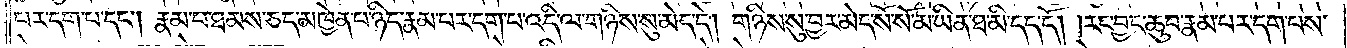པར་དག་པ་དང༌། རྣམ་པ་ཐམས་ཅད་མཁྱེན་པ་ཉིད་རྣམ་པར་དག་པ་འདི་ལ་གཉིས་སུ་མེད་དེ། གཉིས་སུ་བྱར་མེད་སོ་སོ་མ་ཡིན་ཐ་མི་དད་དོ། །རང་བྱང་ཆུབ་རྣམ་པར་དག་པས་
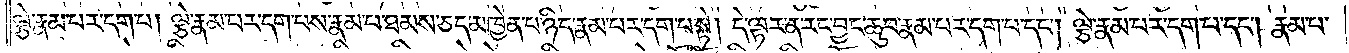ལྕེ་རྣམ་པར་དག་པ། ལྕེ་རྣམ་པར་དག་པས་རྣམ་པ་ཐམས་ཅད་མཁྱེན་པ་ཉིད་རྣམ་པར་དག་པ་སྟེ། དེ་ལྟར་ན་རང་བྱང་ཆུབ་རྣམ་པར་དག་པ་དང༌། ལྕེ་རྣམ་པར་དག་པ་དང༌། རྣམ་པ་
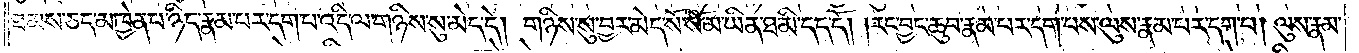ཐམས་ཅད་མཁྱེན་པ་ཉིད་རྣམ་པར་དག་པ་འདི་ལ་གཉིས་སུ་མེད་དེ། གཉིས་སུ་བྱར་མེད་སོ་སོ་མ་ཡིན་ཐ་མི་དད་དོ། །རང་བྱང་ཆུབ་རྣམ་པར་དག་པས་ལུས་རྣམ་པར་དག་པ། ལུས་རྣམ་
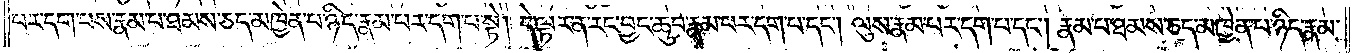པར་དག་པས་རྣམ་པ་ཐམས་ཅད་མཁྱེན་པ་ཉིད་རྣམ་པར་དག་པ་སྟེ། དེ་ལྟར་ན་རང་བྱང་ཆུབ་རྣམ་པར་དག་པ་དང༌། ལུས་རྣམ་པར་དག་པ་དང༌། རྣམ་པ་ཐམས་ཅད་མཁྱེན་པ་ཉིད་རྣམ་
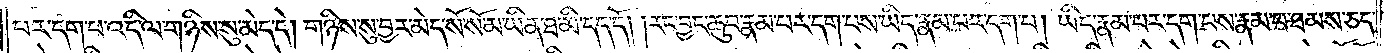པར་དག་པ་འདི་ལ་གཉིས་སུ་མེད་དེ། གཉིས་སུ་བྱར་མེད་སོ་སོ་མ་ཡིན་ཐ་མི་དད་དོ། །རང་བྱང་ཆུབ་རྣམ་པར་དག་པས་ཡིད་རྣམ་པར་དག་པ། ཡིད་རྣམ་པར་དག་པས་རྣམ་པ་ཐམས་ཅད་
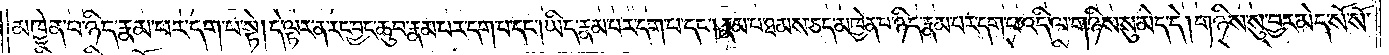མཁྱེན་པ་ཉིད་རྣམ་པར་དག་པ་སྟེ། དེ་ལྟར་ན་རང་བྱང་ཆུབ་རྣམ་པར་དག་པ་དང༌། ཡིད་རྣམ་པར་དག་པ་དང༌། རྣམ་པ་ཐམས་ཅད་མཁྱེན་པ་ཉིད་རྣམ་པར་དག་པ་འདི་ལ་གཉིས་སུ་མེད་དེ། གཉིས་སུ་བྱར་མེད་སོ་སོ་
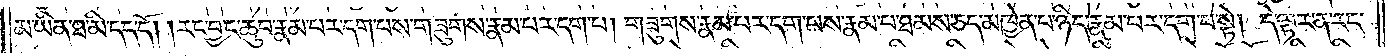མ་ཡིན་ཐ་མི་དད་དོ། །རང་བྱང་ཆུབ་རྣམ་པར་དག་པས་གཟུགས་རྣམ་པར་དག་པ། གཟུགས་རྣམ་པར་དག་པས་རྣམ་པ་ཐམས་ཅད་མཁྱེན་པ་ཉིད་རྣམ་པར་དག་པ་སྟེ། དེ་ལྟར་ན་རང་
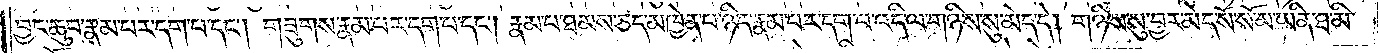བྱང་ཆུབ་རྣམ་པར་དག་པ་དང༌། གཟུགས་རྣམ་པར་དག་པ་དང༌། རྣམ་པ་ཐམས་ཅད་མཁྱེན་པ་ཉིད་རྣམ་པར་དག་པ་འདི་ལ་གཉིས་སུ་མེད་དེ། གཉིས་སུ་བྱར་མེད་སོ་སོ་མ་ཡིན་ཐ་མི་
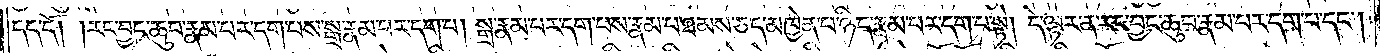དད་དོ། །རང་བྱང་ཆུབ་རྣམ་པར་དག་པས་སྒྲ་རྣམ་པར་དག་པ། སྒྲ་རྣམ་པར་དག་པས་རྣམ་པ་ཐམས་ཅད་མཁྱེན་པ་ཉིད་རྣམ་པར་དག་པ་སྟེ། དེ་ལྟར་ན་རང་བྱང་ཆུབ་རྣམ་པར་དག་པ་དང༌།
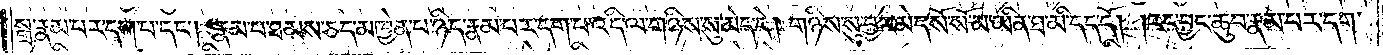སྒྲ་རྣམ་པར་དག་པ་དང༌། རྣམ་པ་ཐམས་ཅད་མཁྱེན་པ་ཉིད་རྣམ་པར་དག་པ་འདི་གཉིས་སུ་མེད་དེ། གཉིས་སུ་བྱར་མེད་སོ་སོ་མ་ཡིན་ཐ་མི་དད་དོ། །རང་བྱང་ཆུབ་རྣམ་པར་དག་
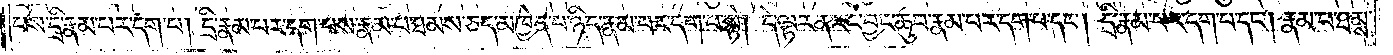པས་དྲི་རྣམ་པར་དག་པ། དྲི་རྣམ་པར་དག་པས་རྣམ་པ་ཐམས་ཅད་མཁྱེན་པ་ཉིད་རྣམ་པར་དག་པ་སྟེ། དེ་ལྟར་ན་རང་བྱང་ཆུབ་རྣམ་པར་དག་པ་དང༌། དྲི་རྣམ་པར་དག་པ་དང༌། རྣམ་པ་ཐམས་
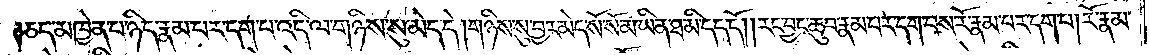ཅད་མཁྱེན་པ་ཉིད་རྣམ་པར་དག་པ་འདི་ལ་གཉིས་སུ་མེད་དེ། གཉིས་སུ་བྱར་མེད་སོ་སོ་མ་ཡིན་ཐ་མི་དད་དོ། །རང་བྱང་ཆུབ་རྣམ་པར་དག་པས་རོ་རྣམ་པར་དག་པ། རོ་རྣམ་
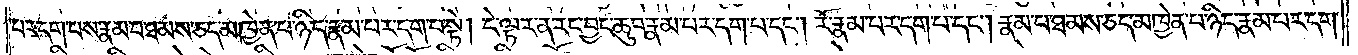པར་དག་པས་རྣམ་པ་ཐམས་ཅད་མཁྱེན་པ་ཉིད་རྣམ་པར་དག་པ་སྟེ། དེ་ལྟར་ན་རང་བྱང་ཆུབ་རྣམ་པར་དག་པ་དང༌། རོ་རྣམ་པར་དག་པ་དང༌། རྣམ་པ་ཐམས་ཅད་མཁྱེན་པ་ཉིད་རྣམ་པར་དག་
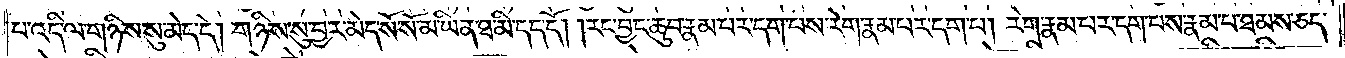པ་འདི་ལ་གཉིས་སུ་མེད་དེ། གཉིས་སུ་བྱར་མེད་སོ་སོ་མ་ཡིན་ཐ་མི་དད་དོ། །རང་བྱང་ཆུབ་རྣམ་པར་དག་པས་རེག་རྣམ་པར་དག་པ། རེག་རྣམ་པར་དག་པས་རྣམ་པ་ཐམས་ཅད་
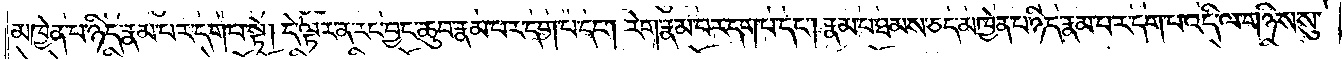མཁྱེན་པ་ཉིད་རྣམ་པར་དག་པ་སྟེ། དེ་ལྟར་ན་རང་བྱང་ཆུབ་རྣམ་པར་དག་པ་དང༌། རེག་རྣམ་པར་དག་པ་དང༌། རྣམ་པ་ཐམས་ཅད་མཁྱེན་པ་ཉིད་རྣམ་པར་དག་པ་འདི་ལ་གཉིས་སུ་
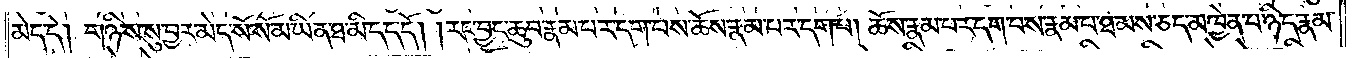མེད་དེ། གཉིས་སུ་བྱར་མེད་སོ་སོ་མ་ཡིན་ཐ་མི་དད་དོ། །རང་བྱང་ཆུབ་རྣམ་པར་དག་པས་ཆོས་རྣམ་པར་དག་པ། ཆོས་རྣམ་པར་དག་པས་རྣམ་པ་ཐམས་ཅད་མཁྱེན་པ་ཉིད་རྣམ་
